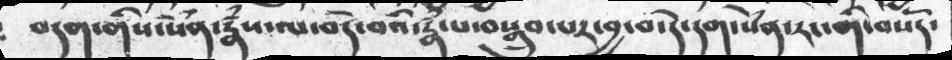བདག་གིས་སེནཾ་རྣཾས་ལ་བདེ་བའི་རྣཾ་པ་བསྒྲུབ་པར་བྱ་བ་དེ་དག་སེནཾ་རང་གི་བསོད་
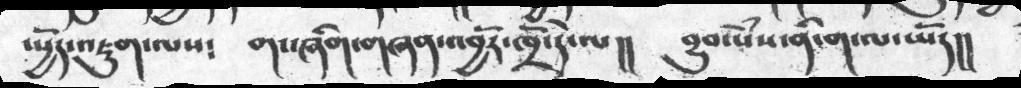ཡྱོད་འཇུག་ལས༴    གང་ཞིག་གཞན་འབྱོར་ཁྲོ་དེ་ལ།།    བྱུབ་སེཾས་ནི་ག་ལ་ཡོད།།
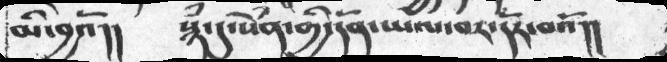མི་བྱའོ།།     སྙཾ་དུ་སེཾན་གྱི་དོན་ཡལ་བར་དོར་བའོ།།
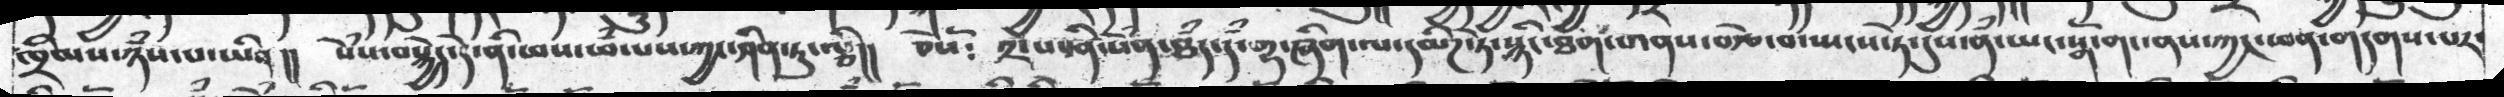ཁྲིམས་ཉཾས་པ་ཡིན།།   སེཾས་བསྐྱེད་དེ་ནི་ཕས་ཕཾ་པས་ཀྱང་ཤིན་ཏུ་ལྕི།།  ཅེསོ༴  ༢་པ་ནི་སེཾན་ཐཾད་དཾ་གྷ་ཞིག་ལ་དམིཌ་ཏེ་སྙིང་ཐག་གནས་བརྩེ་བ་ཡངས་ཏེ་དུས་ནཾ་ཡང་སྒོ་གང་ནས་ཀྱང་ཕན་གདགས་པར་
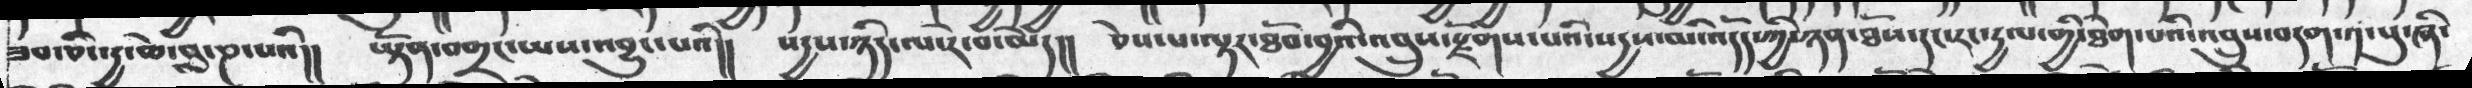ཟབ་ཅིང་དྱ་ཆེ་བླ་ཎ་པའི།།    ཡྟོན་བགྲང་ཡས་འབྱུང་པའི།།   སདྱས་ཉིད་ལ་རེ་་མེད།།  ཅེས་པ་ལྟར་ཐོབ་བྱའི་འབྲུས་སྗོགས་པའི་སདྱས་མི་འདོད་ཉན་ཐོས་དང་རང་དྱལ་གྱི་ཐེག་པའི་འབྲུས་བདག་༡་པུ་ཞི་
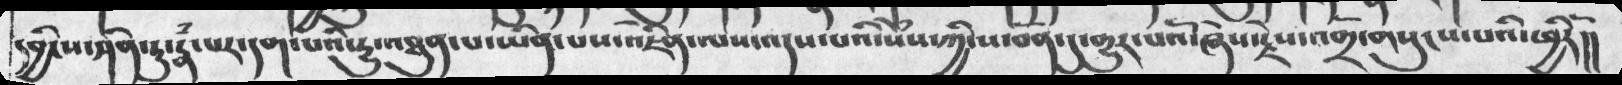དབྱིངས་ཤིན་ཏུ་རྣཾ་པར་དག་པའི་རྱུ་འཐུན་པ་ཡིན་པས་འཇིེན་ལས་འདས་པའི་སེཾས་ཀྱི་ས་བོན་དུ་གྱུར་པའོ་ཞེས་རྗེས་འགྲོ་གསུངས་པའི་ཕྱིརོ།།
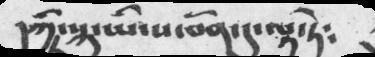དཀྱི་སྐུ་ཡི་ས་བོན་དུ་ལྟ་ཏེ༴
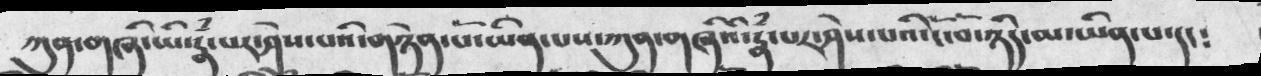ཀུན་གཞི་ཡི་རྣཾ་པར་ཤེས་པའི་གཉེན་པོ་ཡིན་པས་ཀུན་གཞིའི་རྣཾ་པར་ཤེས་པའི་ངོ་བོ་ཉིད་མ་ཡིན་པ་དང༴
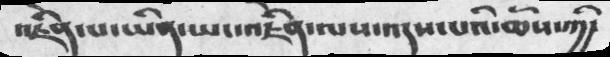འཇིེན་པ་ཡིན་ཡང་འཇིེན་ལས་འདས་པའི་ཆོས་ཀྱི་
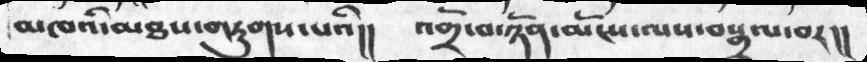མཁའི་མཐས་གཏུགས་པའི།།    འགྲོ་བ་ཉོན་མོངས་ལས་བསྒྲལ་བར།།
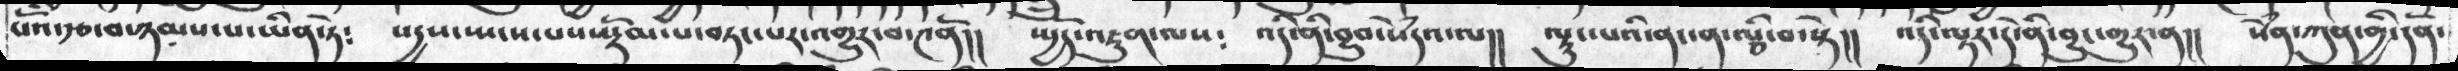པའོ་རྩ་བ་ཉམས་པ་ཡིན་ཏེ༴   སརྒྱས་ཡངས་པས་སྡོམ་པ་བཏང་པར་འགྱུར་བ་༤ནོ།།  སྤྱོད་འཇུག་ལས༴  འདི་ནི་བྱུབ་སེཾདའ་ལ།།  ལྟུང་པའི་ནང་ན་ལྕི་བ་སྟེ།།  འདི་ལྟར་དེ་ནི་བྱུང་གྱུར་ན།།   སེཾན་ཀུན་གྱི་དོན་
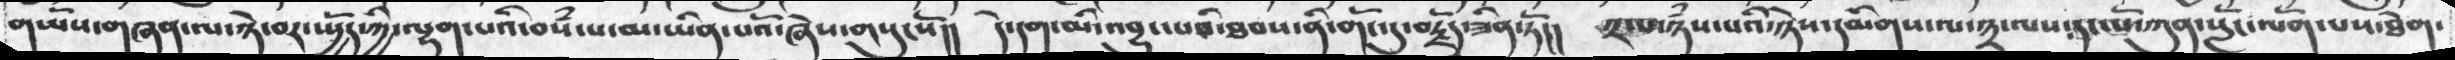གཡོས་གཞན་ལ་ཉེ་བར་སྤྱོད་ཀྱི་ལྷག་པའི་བསྃ་པ་མ་ཡིན་པའོ་ཞེས་གསུངསོ།།   དེ་དག་མི་འབྱུང་པའི་ཐབས་ནི་གོང་དུ་བརྗོད་ཟིན་ཏོ།།  ༢་པ་ཉཾས་པའི་ཉེས་དམིགས་ལ་༣་ལས་དང་པོ་ཀུན་སློང་ལོག་པས་ཐེག་
